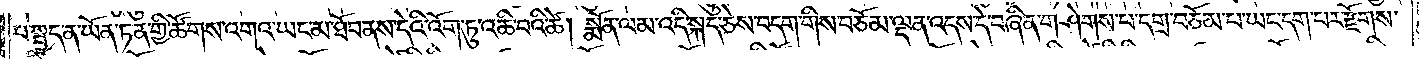པ་སྤྱད་ན་ཡོན་ཏན་གྱི་ཚོགས་འགའ་ཡང་མ་ཐོབ་ནས་དེའི་འོག་ཏུ་འཆི་བའི་ཚེ། སྨོན་ལམ་འདི་སྐད་ཅེས་བདག་གིས་བཅོམ་ལྡན་འདས་དེ་བཞིན་གཤེགས་པ་དགྲ་བཅོམ་པ་ཡང་དག་པར་རྫོགས་
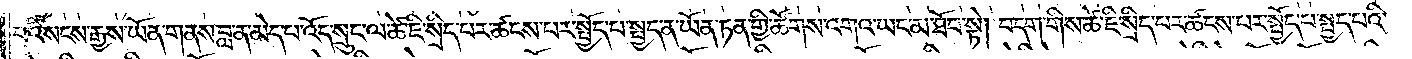པའི་སངས་རྒྱས་ཡོན་གནས་བླ་ན་མེད་པ་འོད་སྲུང་ལ་ཚེ་ཇི་སྲིད་པར་ཚངས་པར་སྤྱོད་པ་སྤྱད་ན་ཡོན་ཏན་གྱི་ཚོགས་འགའ་ཡང་མ་ཐོབ་སྟེ། བདག་གིས་ཚེ་ཇི་སྲིད་པར་ཚངས་པར་སྤྱོད་པ་སྤྱད་པའི་
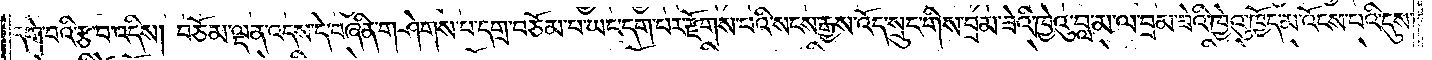དགེ་བའི་རྩ་བ་འདིས། བཅོམ་ལྡན་འདས་དེ་བཞིན་གཤེགས་པ་དགྲ་བཅོམ་པ་ཡང་དག་པར་རྫོགས་པའི་སངས་རྒྱས་འོད་སྲུང་གིས་བྲམ་ཟེའི་ཁྱེའུ་བླ་མ་ལ་བྲམ་ཟེའི་ཁྱེའུ་ཁྱོད་མ་འོངས་པའི་དུས་
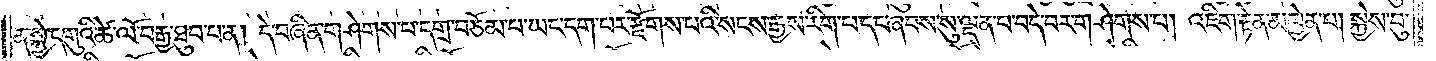ན་སྐྱེ་དགུའི་ཚེ་ལོ་བརྒྱ་ཐུབ་པ་ན། དེ་བཞིན་གཤེགས་པ་དགྲ་བཅོམ་པ་ཡང་དག་པར་རྫོགས་པའི་སངས་རྒྱས་རིག་པ་དང་ཞབས་སུ་ལྡན་པ་བདེ་བར་གཤེགས་པ། འཇིག་རྟེན་མཁྱེན་པ། སྐྱེས་བུ་
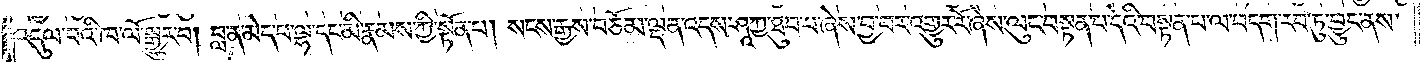འདུལ་བའི་ཁ་ལོ་སྒྱུར་བ། བླ་ན་མེད་པ་ལྷ་དང་མི་རྣམས་ཀྱི་སྟོན་པ། སངས་རྒྱས་བཅོམ་ལྡན་འདས་ཤཱཀྱ་ཐུབ་པ་ཞེས་བྱ་བར་འགྱུར་རོ་ཞེས་ལུང་བསྟན་པ་དེའི་བསྟན་པ་ལ་བདག་རབ་ཏུ་བྱུང་ནས་
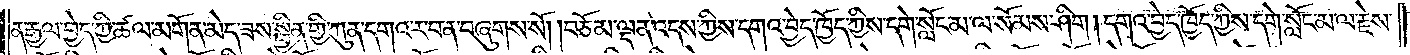ན་རྒྱལ་བྱེད་ཀྱི་ཚལ་མགོན་མེད་ཟས་སྦྱིན་གྱི་ཀུན་དགའ་ར་བ་ན་བཞུགས་སོ། །བཅོམ་ལྡན་འདས་ཀྱིས་དགའ་བྱེད་ཁྱོད་ཀྱིས་དགེ་སློང་མ་ལ་སོམས་ཤིག །དགའ་བྱེད་ཁྱོད་ཀྱིས་དགེ་སློང་མ་ལ་རྗེས་
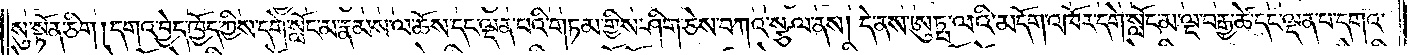སུ་སྟོན་ཅིག །དགའ་བྱེད་ཁྱོད་ཀྱིས་དགེ་སློང་མ་རྣམས་ལ་ཆོས་དང་ལྡན་པའི་གཏམ་གྱིས་ཤིག་ཅེས་བཀའ་སྩལ་ནས། དེ་ནས་ཨུཏྤ་ལའི་མདོག་འཁོར་དགེ་སློང་མ་ལྔ་བརྒྱ་ཚེ་དང་ལྡན་པ་དགའ་
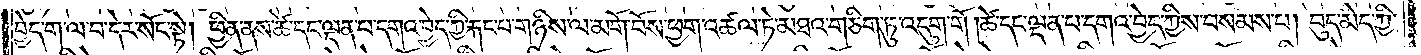བྱེད་ག་ལ་བ་དེར་སོང་སྟེ། ཕྱིན་ནས་ཚེ་དང་ལྡན་པ་དགའ་བྱེད་ཀྱི་རྐང་པ་གཉིས་ལ་མགོ་བོས་ཕྱག་འཚལ་ཏེ་མཐའ་གཅིག་ཏུ་འདུག་གོ །ཚེ་དང་ལྡན་པ་དགའ་བྱེད་ཀྱིས་བསམས་པ། བུད་མེད་ཀྱི་
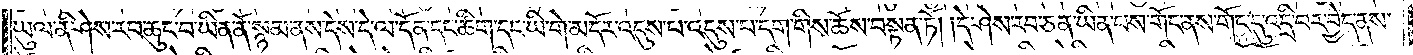ཡུལ་ནི་ཤེས་རབ་ཆུང་བ་ཡིན་ནོ་སྙམ་ནས་དེས་དེ་ལ་དོན་དང་ཚིག་དང་ཡི་གེ་མདོར་འདུས་པ་འདུས་པ་དག་གིས་ཆོས་བསྟན་ཏོ། །དེ་ཤེས་རབ་ཅན་ཡིན་པས་གོང་ནས་གོང་དུ་འདྲི་བར་བྱེད་ནས་
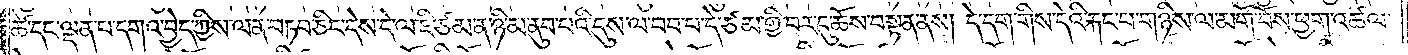ཚེ་དང་ལྡན་པ་དགའ་བྱེད་ཀྱིས་ལན་བཏབ་ཅིང་དེས་དེ་ལ་ཇི་ཙམ་ན་ཉི་མ་ནུབ་པའི་དུས་ལ་བབ་པ་དེ་ཙམ་གྱི་བར་དུ་ཆོས་བསྟན་ནས། དེ་དག་གིས་དེའི་རྐང་པ་གཉིས་ལ་མགོ་བོས་ཕྱག་འཚལ་
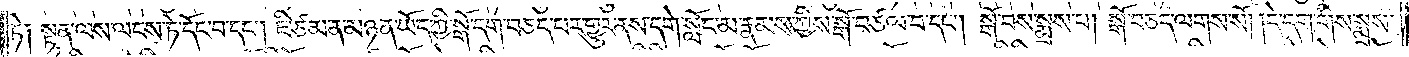ཏེ། སྟན་ལས་ལངས་ཏེ་དོང་བ་དང༌། ཇི་ཙམ་ན་མཉན་ཡོད་ཀྱི་སྒོ་དག་བཅད་པར་གྱུར་ནས་དགེ་སློང་མ་རྣམས་ཀྱིས་སྒོ་བཙལ་བ་དང༌། སྒོ་བས་སྨྲས་པ། སྒོ་བཅད་ལགས་སོ། །དེ་དག་གིས་སྨྲས་
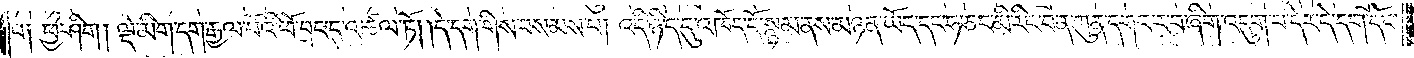པ། ཕྱེ་ཤིག །ལྡེ་མིག་དག་རྒྱལ་པོའི་ཕོ་བྲང་དུ་འཚལ་ཏོ། །དེ་དག་གིས་བསམས་པ། འདི་ཉིད་དུ་འཁོད་དོ་སྙམ་ནས་མཉན་ཡོད་དང་ཧ་ཅང་མི་རིང་བ་ན་ཀུན་དགའ་ར་བ་ཞིག་འདུག་པ་དེར་དེ་དག་དོང་
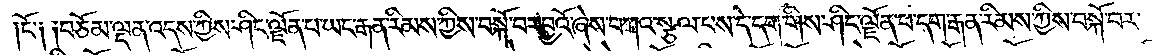ངོ༌། །བཅོམ་ལྡན་འདས་ཀྱིས་ཤིང་ལྗོན་པ་ཡང་རྒན་རིམས་ཀྱིས་བསྐོ་བར་བྱའོ་ཞེས་བཀའ་སྩལ་པས་དེ་དག་གིས་ཤིང་ལྗོན་པ་དག་རྒན་རིགས་ཀྱིས་བསྐོ་བར་
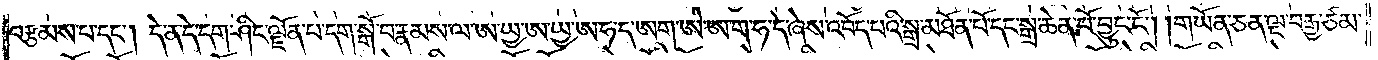བརྩམས་པ་དང༌། དེ་ན་དེ་དག་ཤིང་ལྗོན་པ་དག་སྒོ་བ་རྣམས་ལ་ཨ་ཡྱ་ཨ་ཡྱ་ཨ་ཧ་ད་ཨག་ཨེ་ཨ་ག་ཧ་དེ་ཞེས་འབོད་པའི་སྒྲ་མཐོན་པོ་དང་སྒྲ་ཆེན་པོ་བྱུང་ངོ༌། །གཡོན་ཅན་ལྔ་བརྒྱ་ཙམ་
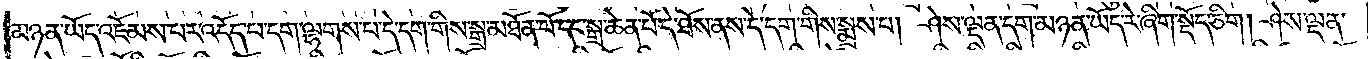མཉན་ཡོད་འཇོམས་པར་འདོད་པ་དག་ལྷགས་པ་དེ་དག་གིས་སྒྲ་མཐོན་པོ་དང་སྒྲ་ཆེན་པོ་དེ་ཐོས་ནས་དེ་དག་གིས་སྨྲས་པ། ཤེས་ལྡན་དག་མཉན་ཡོད་རེ་ཞིག་སྡོད་ཅིག །ཤེས་ལྡན་
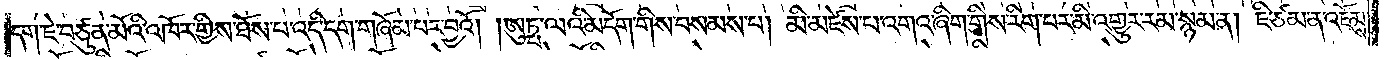དག་ཇེ་བཙུན་མོའི་འཁོར་གྱིས་ཐོས་པ་འདི་དག་གཞོམ་པར་བྱའོ། །ཨུཏྤ་ལའི་མདོག་གིས་བསམས་པ། མི་མཛེས་པ་འགའ་ཞིག་གིས་རིག་པར་མི་འགྱུར་རམ་སྙམ་ན། ཇི་ཙམ་ན་འཇོམས་
